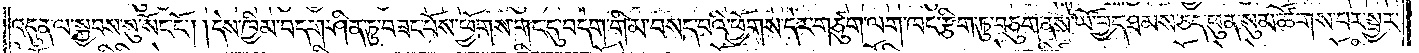འདུན་ལ་སྐྱབས་སུ་སོང་ངོ༌། །དེས་ཁྱིམ་བདག་ཤིན་ཏུ་བཟང་པོས་ཕྱོགས་གང་དུ་བདག་གི་མ་བསད་པའི་ཕྱོགས་དེར་གཙུག་ལག་ཁང་རྩིག་ཏུ་བཅུག་ནས་ཡོ་བྱད་ཐམས་ཅད་ཕུན་སུམ་ཚོགས་པར་སྦྱར་
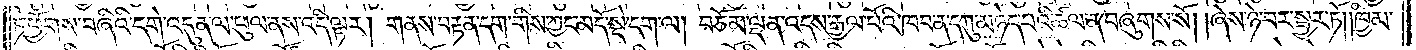ཏེ་ཕྱོགས་བཞིའི་དགེ་འདུན་ལ་ཕུལ་ནས་འདི་ལྟར། གནས་བརྟན་དག་གིས་ཀྱང་མདོ་སྡེ་དག་ལ། བཅོམ་ལྡན་འདས་རྒྱལ་པོའི་ཁབ་ན་དཀུ་མཉེད་པའི་ཚལ་ན་བཞུགས་སོ། །ཞེས་ཉེ་བར་སྦྱར་ཏོ༎ཁྱིམ་
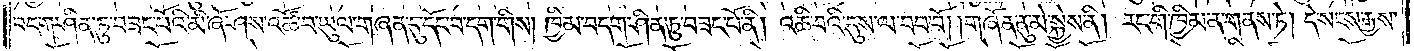བདག་ཤིན་ཏུ་བཟང་པོའི་མི་ཞོ་ཤས་འཚོ་བ་ཡུལ་གཞན་དུ་དོང་བ་དག་གིས། ཁྱིམ་བདག་ཤིན་ཏུ་བཟང་པོ་ནི། འཆི་བའི་དུས་ལ་བབ་བོ། །གཞོན་ནུ་མེ་སྐྱེས་ནི། རང་གི་ཁྱིམ་ན་གནས་ཏེ། དེ་སངས་རྒྱས་
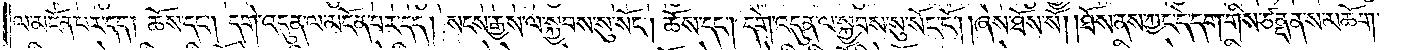ལ་མངོན་པར་དད། ཆོས་དང༌། དགེ་འདུན་ལ་མངོན་པར་དད། སངས་རྒྱས་ལ་སྐྱབས་སུ་སོང༌། ཆོས་དང༌། དགེ་འདུན་ལ་སྐྱབས་སུ་སོང་ངོ༌། །ཞེས་ཐོས་སོ། །ཐོས་ནས་ཀྱང་དེ་དག་གིས་ཙནྡ་ནས་མཆོག་
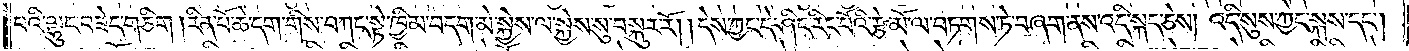པའི་ལྷུང་བཟེད་གཅིག །རིན་པོ་ཆེ་དག་གིས་བཀང་སྟེ་ཁྱིམ་བདག་མེ་སྐྱེས་ལ་སྐྱེས་སུ་བསྐུར་རོ། །དེས་ཀྱང་དེ་ཤིང་རིང་པོའི་རྩེ་མོ་ལ་བཏགས་ཏེ་བཞག་ནས་འདི་སྐད་ཅེས། འདི་སུས་ཀྱང་སྐས་དང༌།
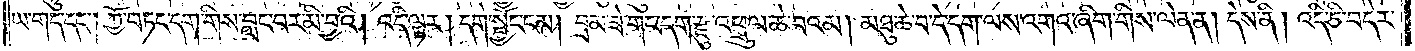ཡ་གད་དང༌། ཀྱོ་བཏང་དག་གིས་བླང་བར་མི་བྱའི། འདི་ལྟར། དགེ་སྦྱོང་ངམ། བྲམ་ཟེ་གང་དག་རྫུ་འཕྲུལ་ཆེ་བའམ། མཐུ་ཆེ་བ་དེ་དག་ལས་འགའ་ཞིག་གིས་ལེན་ན། དེས་ནི། འདི་ཅི་བདེར་
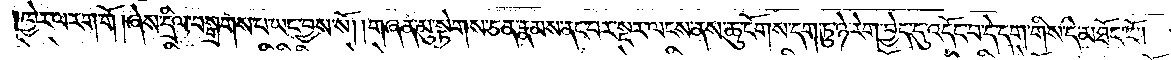ཁྱེར་ལ་རག་གོ །ཞེས་དྲིལ་བསྒྲགས་པ་ཡང་བྱས་སོ། །གཞན་མུ་སྟེགས་ཅན་རྣམས་ནང་པར་སྔར་ལངས་ནས་ཆུ་ངོགས་དག་ཏུ་ཉེ་རེག་བྱེད་དུ་འདོང་བ་དེ་དག་གིས་དེ་མཐོང་ངོ༌། །
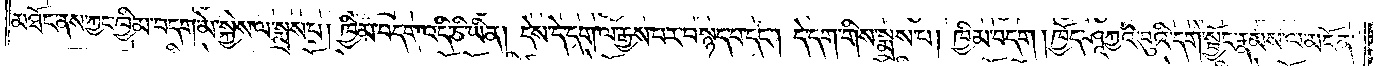མཐོང་ནས་ཀྱང་ཁྱིམ་བདག་མེ་སྐྱེས་ལ་སྨྲས་པ། ཁྱིམ་བདག་འདི་ཅི་ཡིན། དེས་དེ་དག་ལ་རྒྱས་པར་བསྙད་པ་དང༌། དེ་དག་གིས་སྨྲས་པ། ཁྱིམ་བདག། ཁྱོད་ཤཱཀྱའི་བུའི་དགེ་སྦྱོང་རྣམས་ལ་མངོན་
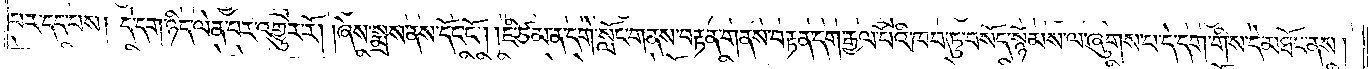པར་དད་པས། དེ་དག་ཉིད་ལེན་པར་འགྱུར་རོ། །ཞེས་སྨྲས་ནས་དོང་ངོ༌། །ཇི་ཙམ་ན་དགེ་སློང་གནས་བརྟན་གནས་བརྟན་དག་རྒྱལ་པོའི་ཁབ་ཏུ་བསོད་སྙོམས་ལ་ཞུགས་པ་དེ་དག་གིས་དེ་མཐོང་ནས།
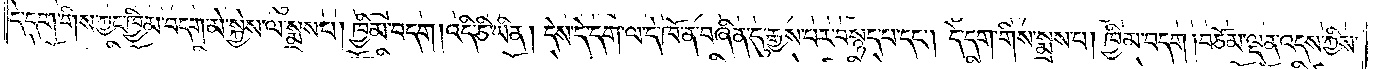དེ་དག་གིས་ཀྱང་ཁྱིམ་བདག་མེ་སྐྱེས་ལ་སྨྲས་པ། ཁྱིམ་བདག། འདི་ཅི་ཡིན། དེས་དེ་དག་ལ་དེ་ཁོ་ན་བཞིན་དུ་རྒྱས་པར་བསྙད་པ་དང༌། དེ་དག་གིས་སྨྲས་པ། ཁྱིམ་བདག །བཅོམ་ལྡན་འདས་ཀྱིས་
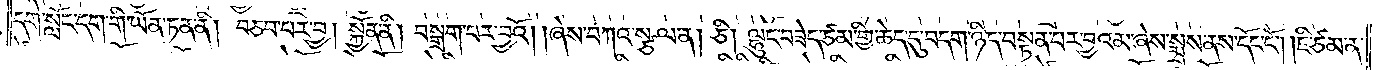དགེ་སློང་དག་གི་ཡོན་ཏན་ནི། བཅབ་པར་བྱ། སྐྱོན་ནི། བསྒྲག་པར་བྱའོ། །ཞེས་བཀའ་སྩལ་ན། ཅི། ལྷུང་བཟེད་ཙམ་གྱི་ཆེད་དུ་བདག་ཉིད་བསྟན་པར་བྱའམ་ཞེས་སྨྲས་ནས་དོང་ངོ༌། །ཇི་ཙམ་ན་
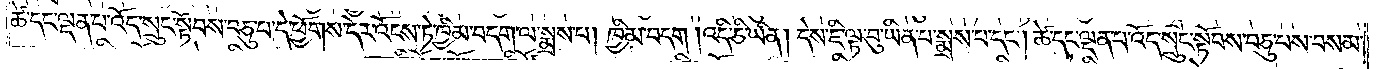ཚེ་དང་ལྡན་པ་འོད་སྲུང་སྟོབས་བཅུ་པ་དེ་ཕྱོགས་དེར་འོངས་ཏེ་ཁྱིམ་བདག་ལ་སྨྲས་པ། ཁྱིམ་བདག། འདི་ཅི་ཡིན། དེས་ཇི་ལྟ་བུ་ཡིན་པ་སྨྲས་པ་དང༌། ཚེ་དང་ལྡན་པ་འོད་སྲུང་སྟོབས་བཅུ་པས་བསམ་
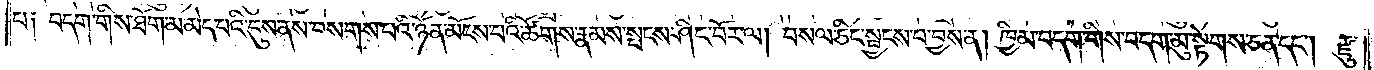པ༑ བདག་གིས་ཐོག་མ་མེད་པའི་དུས་ནས་བསགས་པའི་ཉོན་མོངས་པའི་ཚོགས་རྣམས་སྤངས་ཤིང་བོར་ལ། བསལ་ཅིང་སྦྱངས་པ་བྱས་ན། ཁྱིམ་བདག་གིས་བདག་མུ་སྟེགས་ཅན་དང༌། རྫུ་
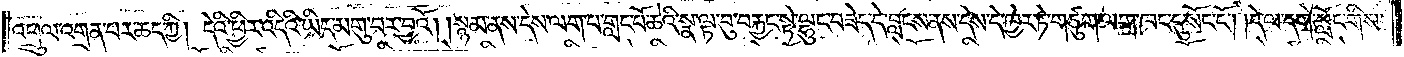འཕྲུལ་འགྲན་པར་ཆད་ཀྱི། དེའི་ཕྱིར་འདིའི་ཡིད་མགུ་བར་བྱའོ། །སྙམ་ནས་དེས་ལག་པ་གླང་པོ་ཆེའི་སྣ་ལྟ་བུ་བརྐྱང་སྟེ་ལྷུང་བཟེད་དེ་བླངས་ནས་དེས་དེ་ཁྱེར་ཏེ་གཙུག་ལག་ཁང་དུ་སོང་ངོ༌། །དེ་ལ་དགེ་སློང་གིས་
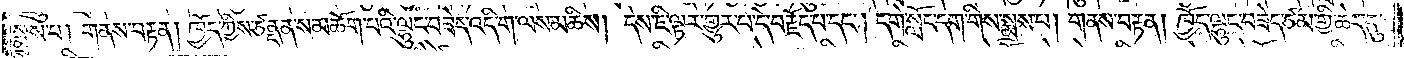སྨྲས་པ། གནས་བརྟན། ཁྱོད་ཀྱིས་ཙནྡན་ས་མཆོག་པའི་ལྷུང་བཟེད་འདི་ག་ལས་མཆིས། དེས་ཇི་ལྟར་གྱུར་པ་དེ་བརྗོད་པ་དང༌། དགེ་སློང་དག་གིས་སྨྲས་པ། གནས་བརྟན། ཁྱོད་ལྷུང་བཟེད་ཙམ་གྱི་ཆེད་དུ་
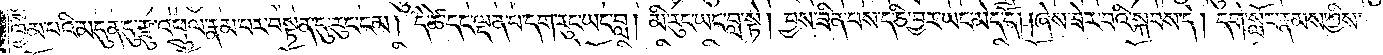ཁྱིམ་པའི་མདུན་དུ་རྫུ་འཕྲུལ་རྣམ་པར་བསྟན་དུ་རུང་ངམ། དེ་ཚེ་དང་ལྡན་པ་དག་རུང་ཡང་བླ། མི་རུང་ཡང་བླ་སྟེ། བྱས་ཟིན་པས་ད་ཅི་བྱར་ཡང་མེད་དོ། །ཞེས་ཟེར་བའི་སྐབས་དེ། དགེ་སློང་རྣམས་ཀྱིས་
